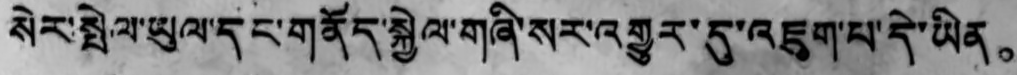སེར་སྤེལ་ཡུལ་དང་གནོད་སྐྱེལ་གཞི་སར་འགྱུར་དུ་འཇུག་པ་དེ་ཡིན。
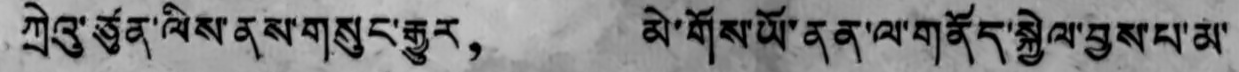ཀྲེའུ་ཙུན་ལིས་ནས་གསུང་རྒྱུར， མེ་གོས་ཡོ་ནན་ལ་གནོད་སྐྱེལ་བྱས་པ་མ་
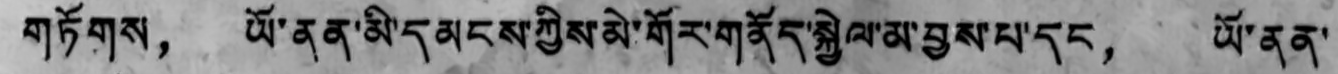གཏོགས， ཡོ་ནན་མི་དམངས་ཀྱིས་མེ་གོར་གནོད་སྐྱེལ་མ་བྱས་པ་དང， ཡོ་ནན་
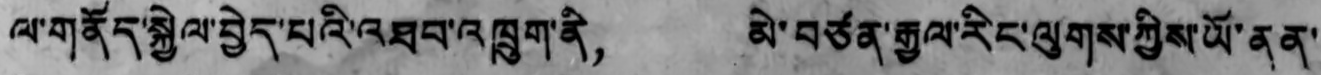ལ་གནོད་སྐྱེལ་བྱེད་པའི་འཐབ་འཁྲུག་ནི， མེ་བཙན་རྒྱལ་རིང་ལུགས་ཀྱིས་ཡོ་ནན་
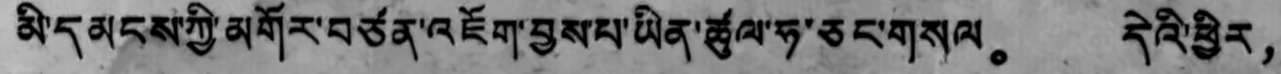མི་དམངས་ཀྱི་མགོར་བཙན་འཇོག་བྱས་པ་ཡིན་ཚུལ་ཧ་ཅང་གསལ。 དེའི་ཕྱིར，
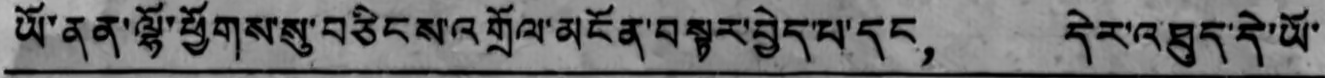ཡོ་ནན་ལྷོ་ཕྱོགས་སུ་བཅིངས་འགྲོལ་མངོན་བསྟར་བྱེད་པ་དང， དེར་འཐུད་དེ་ཡོ་
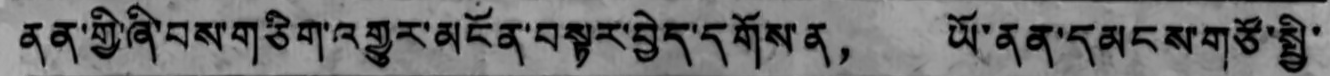ནན་གྱི་ཞི་བས་གཅིག་འགྱུར་མངོན་བསྟར་བྱེད་དགོས་ན， ཡོ་ནན་དམངས་གཙོ་སྤྱི་
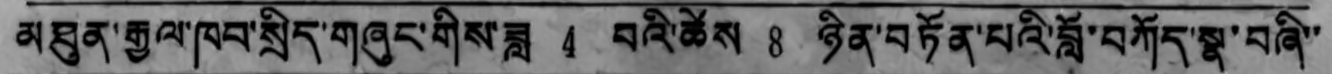མཐུན་རྒྱལ་ཁབ་སྲིད་གཞུང་གིས་ཟླ 4 བའི་ཚེས 8 ཉིན་བཏོན་པའི་བློ་བཀོད་སྣ་བཞི་་
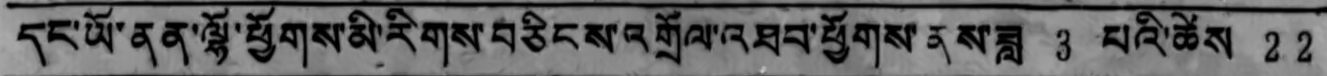དང་ཡོ་ནན་ལྷོ་ཕྱོགས་མི་རིགས་བཅིངས་འགྲོལ་འཐབ་ཕྱོགས་ནས་ཟླ 3 པའི་ཚེས 22
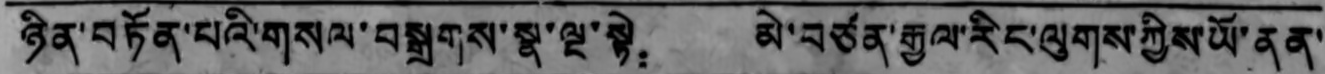ཉིན་བཏོན་པའི་གསལ་བསྒྲགས་སྣ་ལྔ་སྟེ： མེ་བཙན་རྒྱལ་རིང་ལུགས་ཀྱིས་ཡོ་ནན་
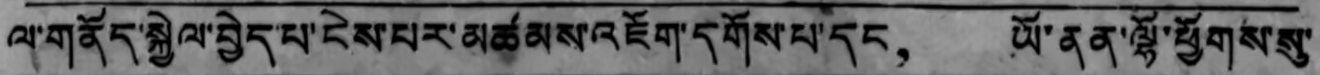ལ་གནོད་སྐྱེལ་བྱེད་པ་ངེས་པར་མཚམས་འཇོག་དགོས་པ་དང， ཡོ་ནན་ལྷོ་ཕྱོགས་སུ་
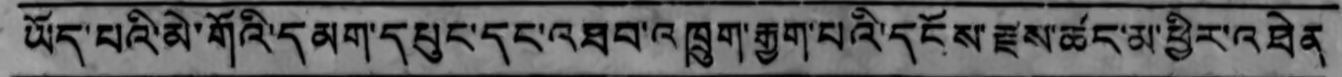ཡོད་པའི་མེ་གོའི་དམག་དཔུང་དང་འཐབ་འཁྲུག་རྒྱག་པའི་དངོས་རྫས་ཚང་མ་ཕྱིར་འཐེན
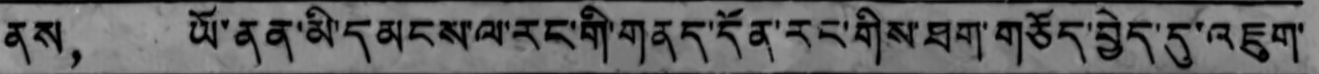ནས， ཡོ་ནན་མི་དམངས་ལ་རང་གི་གནད་དོན་རང་གིས་ཐག་གཅོད་བྱེད་དུ་འཇུག་
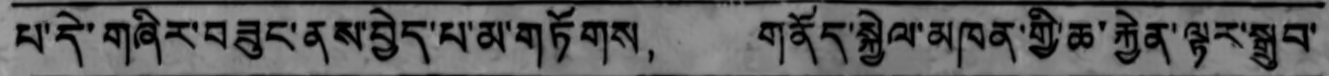པ་དེ་གཞིར་བཟུང་ནས་བྱེད་པ་མ་གཏོགས， གནོད་སྐྱེལ་མཁན་གྱི་ཆ་རྐྱེན་ལྟར་སྒྲུབ་
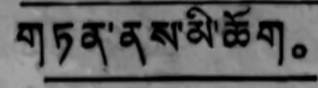གཏན་ནས་མི་ཚོག。
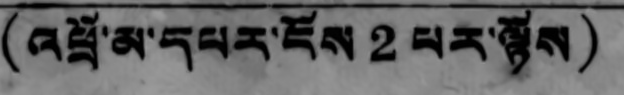(འཕྲོ་མ་དཔར་ངོས་ 2 པར་ལྷོས)
